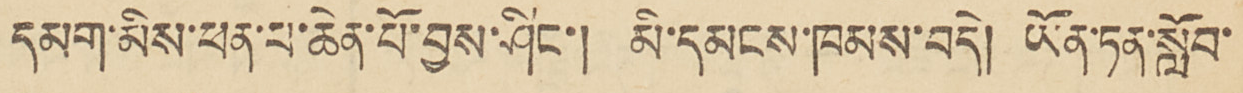དམག་མིས་ཕན་པ་ཆེན་པོ་བྱས་ཤིང་། མི་དམངས་ཁམས་བདེ། ཡོན་ཏན་སློབ་
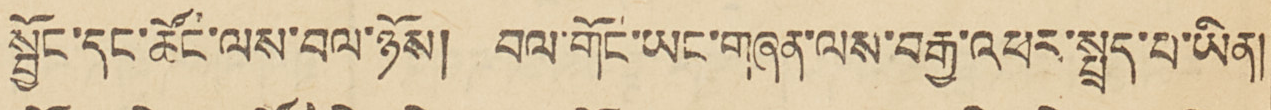སྦྱོང་དང་ཚོང་ལས་བལ་ཉོས། བལ་གོང་ཡང་གཞན་ལས་བརྒྱ་འཕར་སྤྲད་པ་ཡིན།
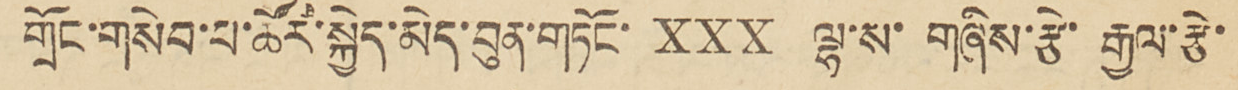གྲོང་གསེབ་པ་ཚོར་སྐྱེད་མེད་བུན་གཏིང་ XXX ལྷ་ས་གཞིས་རྩེ་རྒྱལ་རྩེ་
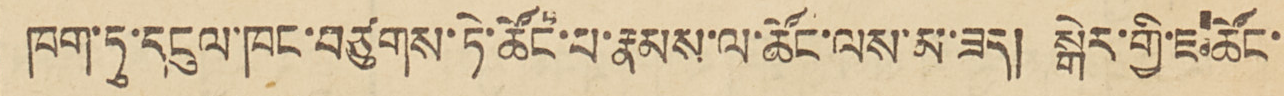ཁག་ཏུ་དངུལ་ཁང་བཙུགས་ཏེ་ཚོང་པ་རྣམས་ལ་ཚོང་ལས་མ་ཟད། སྒེར་གྱི་ཇ་ཚོང་
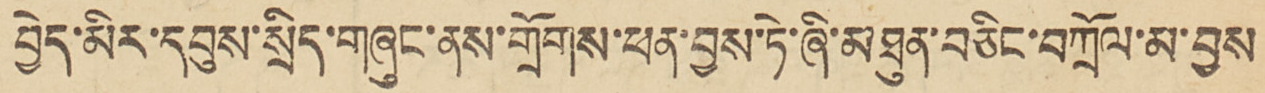བྱེད་མིར་དབུས་སྲིད་གཞུང་ནས་གྲོགས་ཕན་བྱས་ཏེ་ཞི་མཐུན་བཅིང་བཀྲོལ་མ་བྱས
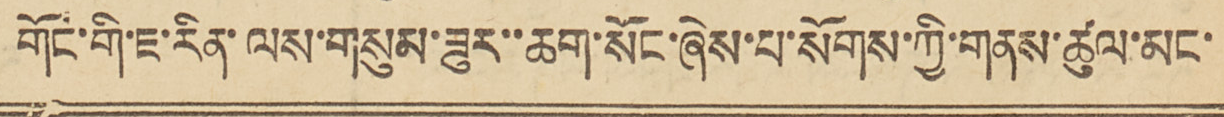གོང་གི་ཇ་རིན་ལས་གསུམ་ཟུར་་ཆག་སོང་ཞེས་པ་སོགས་ཀྱི་གནས་ཚུལ་མང་
